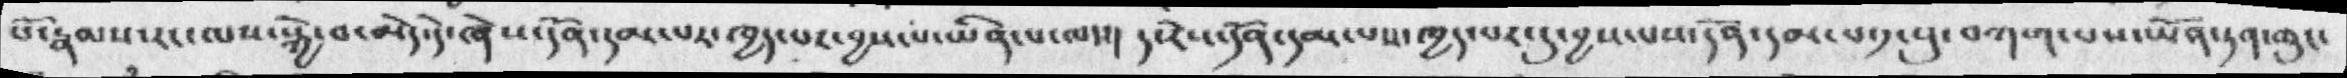པོ་རྣམས་རང་ལས་སྐྱ་བ་མེད་དེ་ཞེས་དོན་དམ་པར་ཁྱད་པར་བྱས་པ་ཡིན་པ་ལས་། ད་རེས་དོན་དམ་པས་ཁྱད་པར་དུ་བྱས་པས་དོན་དམ་པ་༡་སུ་བཀག་པས་ཡོན་ཏན་ཁུང་
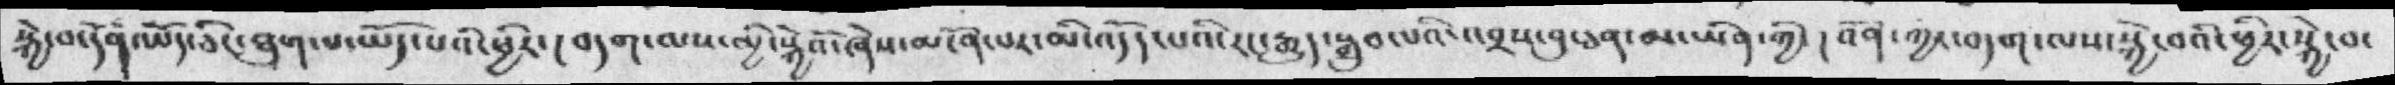སྐྱེ་བ་དོན་ཡོད་ཅིང་ཐུག་པ་ཡོད་པའི་ཕྱིར་།  བདག་ལས་མྱི་སྐྱེའོ་ཞེས་མངོན་པར་མི་འདོད་པའི་རང་རྒྱུད་སྒྲུབ་པའི་འབྲས་བུ་ཅན་མ་ཡིན་གྱི་བོན་ཀྱི་བདག་ལས་སྐྱེ་བའི་ཕྱིར་སྐྱེ་བ་
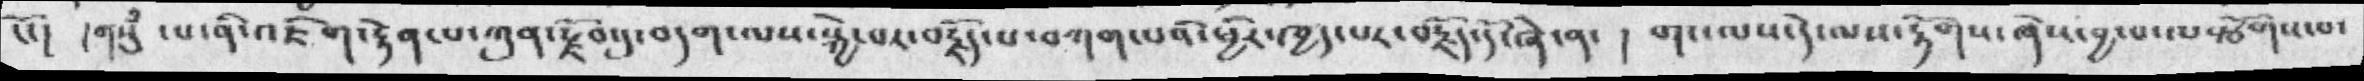ངོ་།  གསུཾ ་པ་ནིའཇིག་རྟེན་པ་ཀུན་རྫོབ་དུ་བདག་ལས་སྐྱེ་བར་བརྗོད་པ་བཀག་པའི་ཕྱིར་ཁྱད་པར་བརྗོད་དོ་ཞེ་ན་  ། གང་ལས་དེ་ལས་རྟོགས་ཞེས་བྱ་བ་ལསྩོགས་པ་
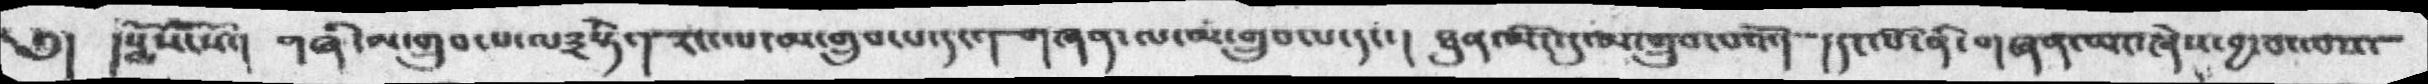༄།  །སྨོས་སོ་།  གཞི་མ་གྲུབ་ལ༣སྟེ་།  རང་ལ་མ་གྲུབ་པ་དང་།  གཞན་ལ་མ་གྲུབ་པ་དང་། ཐུན་མོང་དུ་མ་གྲུབ་པའོ་།  །དང་པོ་ནི་གཞན་ཡང་ཞེས་བྱ་བ་ལས་
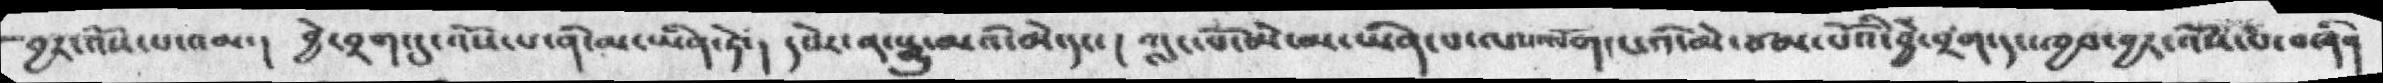བྱར་འོས་པ་འམ་།  བྱེ་བྲག་དུ་འོས་པ་ནི་མ་ཡིན་ཏེ་། དཔེར་ན་སྒྱུ་མའི་མི་དང་ ། ཀླང་པོ་མི་མ་ཡིན་པ་ལས་ལོག་པའི་མི་ཙམ་པོའི་བྱེ་བྲག་དང་ཁྱབ་བྱར་འོས་པ་བཞིན་
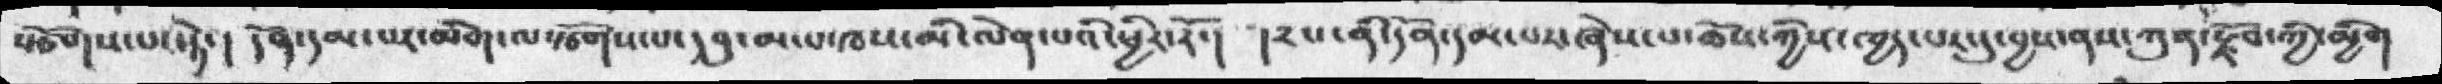སྩོགས་པ་སྟེ་།  དོན་དམ་པར་མིག་ལསྩོགས་པ་དབུ་མ་པ་ཁས་མི་ལེན་པའི་ཕྱིར་རོ་།  །༢པ་ནི་དོན་དམ་པར་ཞེས་པ་ཆོས་ཀྱིས་ཁྱད་པར་དུ་བྱས་ནས་ནས་ཀུན་རྗོབ་ཀྱི་མྱིག་
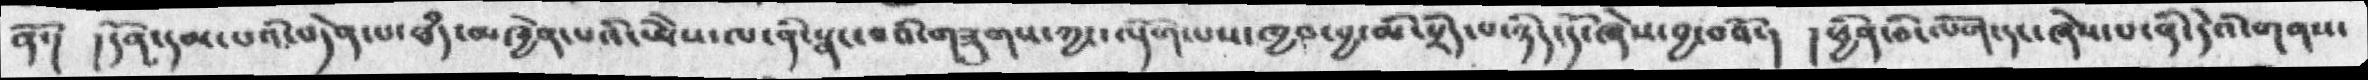ནོ་།  །དོན་དམ་པའི་བདེན་པ་ཐདཾ་མཁྱེན་པའི་ཡེེས་ལ་ནི་སྣང་བའི་གཟུགས་ཀྱང་ལྡོག་པས་ཁྱབ་བྱ་མི་སྲིད་པ་ཉིད་དོ་ཞེས་བྱ་བའོ་།  །ཕྱིན་ཅི་ལོག་དང་ཞེས་པ་དེའི་གནས་
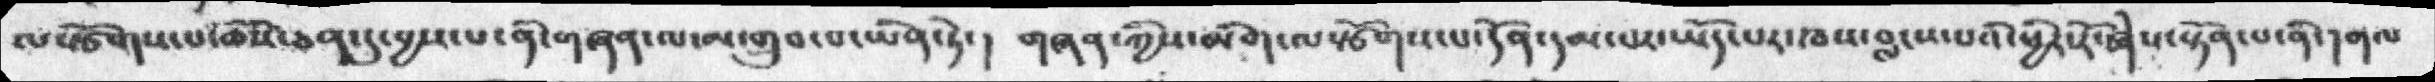ལསྩོགས་པ་ཆོས་ཅན་དུ་བྱས་པ་ནི་གཞན་ལ་མ་གྲུབ་པ་ཡིན་ཏེ་།  གཞན་ཀྱིས་མིག་ལསྩོགས་པ་དོན་དམ་པར་ཡོད་པར་ཁས་བླངས་པའི་ཕྱིར་རོ་ཞེས་སྟོན་པ་ནི་།གལ་
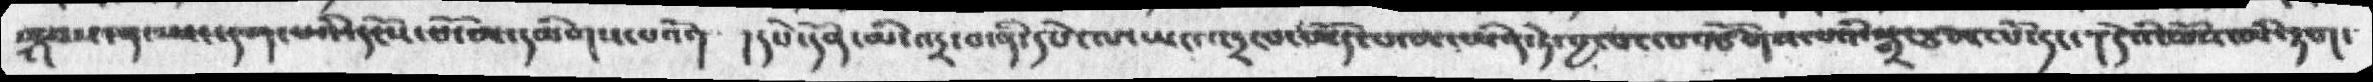བརྟབས་ན་ཡང་དག་པའི་དངོས་པོ་མ་དམིགས་པའོ་། །དཔེ་དོན་མི་འདྲ་བ་ནི་དཔེ་ལ་ཡང་འདྲ་བ་ཡོད་པ་མ་ཡིན་ཏེ་བྱ་བ་ལསྩོགས་པའི་སྒྲ་ཙམ་པོ་དང་ ། དེའི་ཆོས་མི་རྟག་
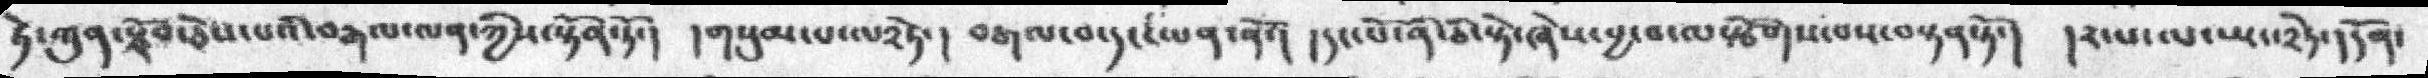ཏེ་ཀུན་སྫོབ་ཅེས་པའི་བརྒལ་ལན་ཀྱིས་སྟོན་ཏོ་།  །གསུམ་པ་ལ༢ཏེ་།  བརྒལ་བ་དང་ལན་ནོ་།  །དང་པོ་ནི་ཅི་སྟེ་ཞེས་བྱ་བ་ལསྩོགས་པས་བསྟན་ཏོ་། །༢་པ་ལ་ཡང་༢ཏེ་།དོན་
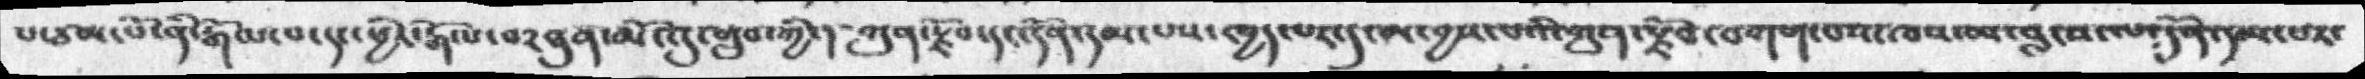པ་ཙམ་པོ་ནི་རྒོལ་བ་དང་ཕྱིར་རྒོལ་བ༢ཐུན་མོང་དུ་གྲུབ་གྱི་།  ཀུན་སྫོབ་དང་དོན་དམ་པས་ཁྱད་པར་དུ་མ་བྱས་པའི་ཀུན་སྫོབ་བགག་པས་ཁས་མ་བླངས་ལ་དོན་དམ་པར་
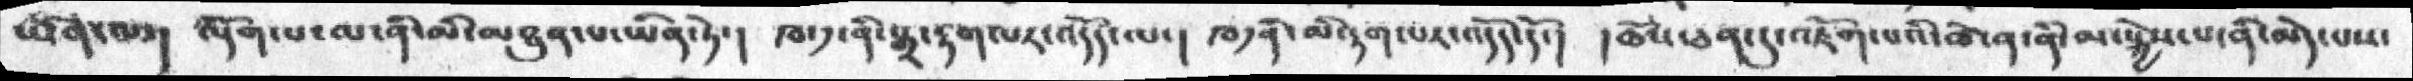ཡིན་ལ། ལྡོག་པ་ལ་ནི་མི་མཐུན་པ་ཡིན་ཏེ་།  ཁ་༡་ནི་སྒྲ་རྟག་པར་འདོད་པ་།  ཁ༡ནི་མི་རྟག་པར་འདོད་དོ་།  །ཆོས་ཕན་དུ་འཇོག་པའི་ཚེ་ན་ནི་མ་སྐྱེས་པ་ནི་མེད་པས་
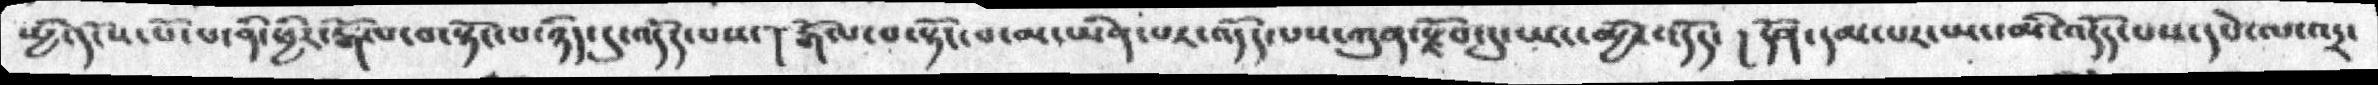མྱི་དངོས་པོ་པ་ནི་ཕྱིར་རྒོལ་བ་སྟོང་པ་ཉིད་དུ་མི་འདོད་པས་རྒོལ་བ་སྟོང་པ་མ་ཡིན་པར་འདོད་པས་ཀུན་རྫོབ་དུ་ཡང་མྱི་འདོད་ ། དོན་དམ་པར་ཡང་མི་འདོད་པས་དཔེ་ལ་འདྲ་
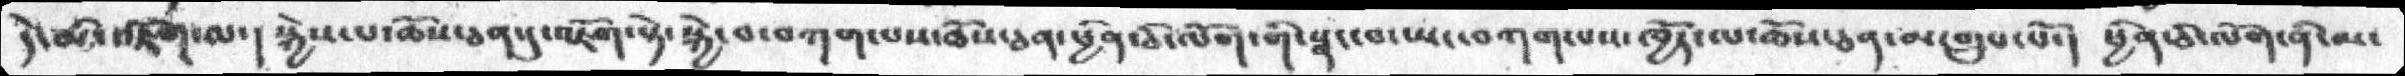དེ་མི་འཇོག་ལ་། སྐྱེས་པ་ཆོས་ཅན་དུ་འཇོག་སྟེ་སྐྱེ་བ་བཀག་པས་ཆོས་ཅན་ཕྱིན་ཅི་ལོག་གི་སྣང་བ་ཡང་བཀག་པས་ཁྱོད་ལ་ཆོས་ཅན་མ་གྲུབ་པ་། ཕྱིན་ཅི་ལོག་ནི་མ་
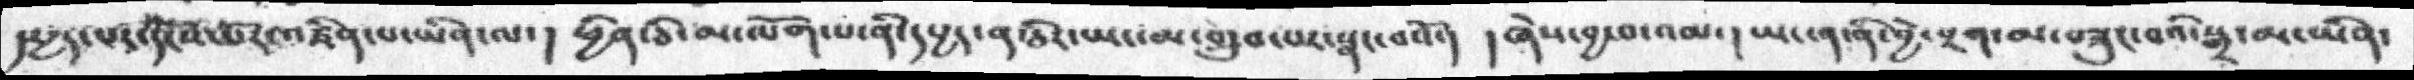དཔྱད་པར་དངོས་པོར་འཛིན་པ་ཡིན་ལ་།  ཕྱིན་ཅི་མ་ལོག་པ་ནི་དཔྱད་ན་ཅིར་ཡང་མ་གྲུབ་པར་སྣང་བའོ་།  །ཞེས་བྱ་བ་འམ་།  ཡང་ན་ནི་བྱེ་བྲག་མ་བཟུང་བའི་སྒྲ་མ་ཡིན་
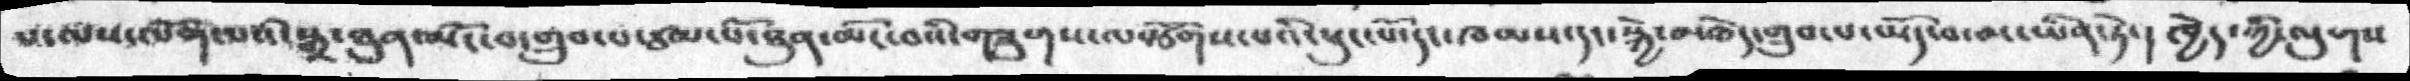པ་ལས་ལོག་པའི་སྒྲ་ཐུན་མོང་བ་གྲུབ་པ་ཙམ་པོ་ཐུན་མོང་བའི་གཟུགས་ལསྩོགས་པའི་ཕུང་པོ་དང་ཁམས་དང་སྐྱེ་མཆེད་མ་གྲུབ་པ་ཡོད་པ་མ་ཡིན་ཏེ་།  ཁྱེད་ཀྱི་ལལུགས
